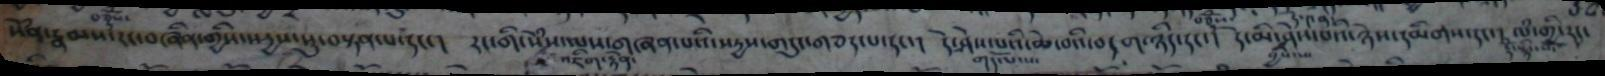སེཾས་རྣམས་རང་བཞིན་གྱིས་སདྱས་སུ་བསྟན་པ་དང་།  རང་གི་སེཾས་ལས་གཞན་པའི་སདྱས་གདུང་བཅད་པ་དང་།  དེ་ཤེས་པའི་ཆེ་བའི་བདག་ཉིད་དང་།  དེ་མི་ཤེས་པའི་ཉེས་དམིགས་དང་།  ལཾ་གྱི་རང་
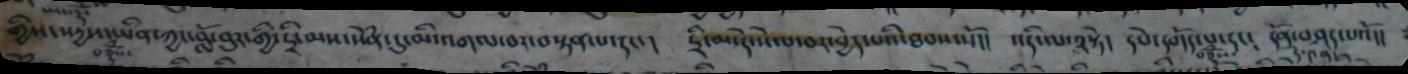གྱིས་སདྱས་བཅྡོཾས་ཡིན་ཀྱང་བློ་བུར་གྱི་དྲི་མས་སེཾན་དུ་མི་འགལ་བར་བསྟན་པ་དང་།  དྲི་མ་དེ་སེལ་བར་བྱེད་པའི་ཐབས་སོ།།  འདི་ལ་༢་སྟེ།  དཔེ་དགོད་པ་དང༴  དོན་བཤད་པའོ།།
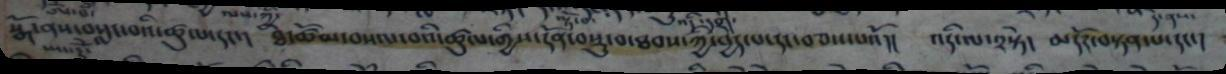སྒོ་ནས་བསླང་བའི་ཚུལ་དང་།  ཐེ་ཚོམ་བསལ་བའི་ཚུལ་གྱིས་དོན་བསྡུ་བ་ཐབས་ཀྱི་བྱེད་པ་དང་བཅས་པའོ།།   འདི་ལ་༢་སྟེ།  མདོར་བསྟན་པ་དང་།
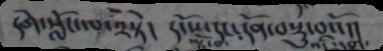དགེ་སློང་ལ་༢་སྟེ།  དངོས་དང་དོན་བསྡུ་བའོ།།
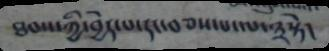ཐབས་ཀྱི་བྱེད་པ་དང་བཅས་པ་ལ་༣སྟེ།
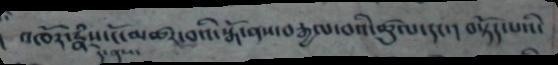འཁོར་རྣཾས་དེ་ནས་ངོ་མཚར་བའི་སྒོ་ནས་བརྒྱལ་བའི་ཚུལ་དངང་།  བསྟོད་པའི་
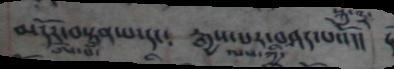མདོར་བསྟན་པ་དང་།  རྒྱས་པར་བཤད་པའོ།།
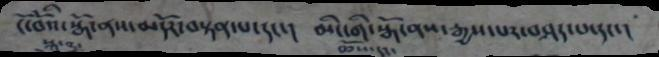ངོ་བོ་སྒོ་ནས་མདོར་བསྟན་པ་དང་།  མིང་གི་སྒོ་ནས་རྒྱས་པར་བཤད་པ་དང་།
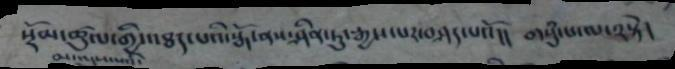སྡོམ་ཚུལ་གྱི་འཐད་པའི་སྒོ་ནས་ཤིན་ཏུ་རྒྱས་པར་བཤད་པའོ།།  གསུཾ་པ་ལ་༢སྟེ།
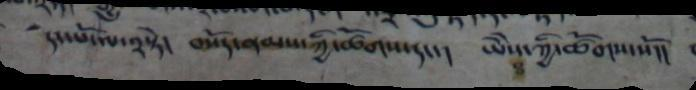དང་པོ་ལ་༢སྟེ། བསོད་ནམས་ཀྱི་ཚོགས་དང་། ཡཻས་ཀྱི་ཚོགས་སོ།།
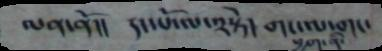ལན་ནོ།།  དང་པོ་ལ་༢སྟེ།  གང་ལ་གང་
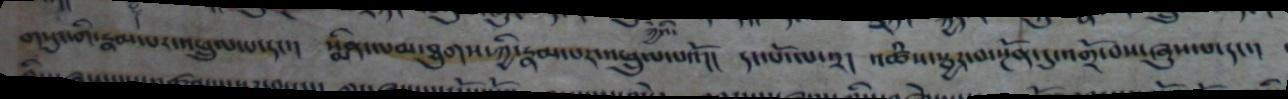གསུང་གི་རྣམ་པར་འཕྲུལ་པ་དང་།  སྨིན་ལམ་ཐུགས་ཀྱི་རྣམ་པར་འཕྲུལ་པའོ།།  དང་པོ་ལ་༢།  འཚཾས་སྦྱར་བ་སྔོན་དུ་འགྲོ་བས་ཞུས་པ་དང་།
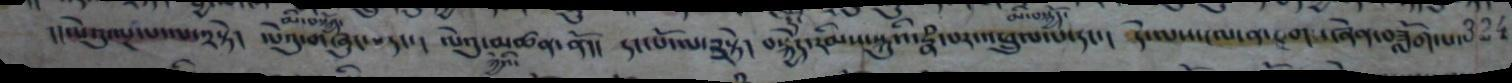།།ལེའུ་ལྔ་པ་ལ་༢སྟེ།  ལེའུ་གཞུང་པ་དང་།  ལེའུ་མཚན་ནོ།།  དང་པོ་ལ་༣སྟེ།  བསྐྱེད་རིམས་སྐུའི་རྣཾ་པར་འཕྲུལ་པ་དང་།  དེ་ལས་ངལ་ན་དྲག་ཞེན་བཟློག་པ་
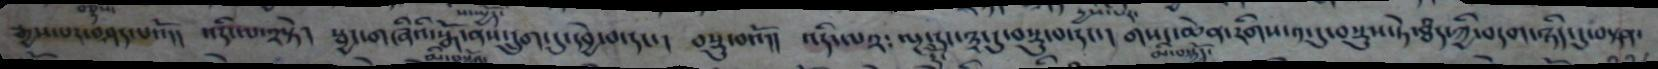རྒྱས་པར་བཤད་པའོ།།  འདི་ལ་༢སྟེ།  སྦྱང་གཞིའི་སྒོ་ནས་དྲུག་དུ་དབྱེ་བ་དང་།  བསྡུ་བའོ།།  འདི་ལ་༢༴  ལྔ་དང་༣་དུ་བསྡུ་བ་དང་།  གསང་ཆེན་རིགས་༡་དུ་བསྡུས་ཏེ་ཐཾད་ཀྱི་བདག་ཉིད་དུ་བསྟན་
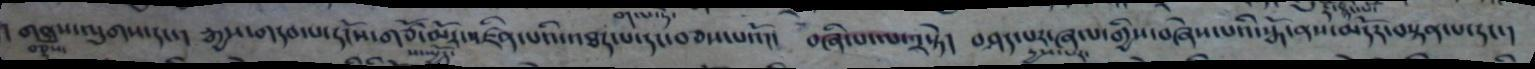། གནས་ལུགས་དང་།  རྒྱས་གདབ་པ་དངོས་གཙོ་མོར་འཛིན་པའི་འཐད་པ་དང་བཅས་པའོ།།  བཞི་པ་ལ་༢སྟེ།  བཤད་པར་ཞལ་གྱིས་བཞེས་པའི་སྒོ་ནས་མདོར་བསྟན་པ་དང་།
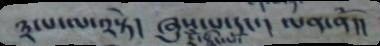༣་པ་ལ་༢སྟེ།  ཞུས་པ་དང་།  ལན་ནོ།།
